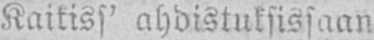Kaikiss' ahdistuksissaan
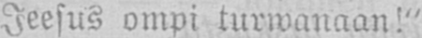Jeesus ompi turwanaan!"
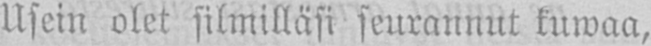Usein olet silmilläsi seurannut kuwaa,
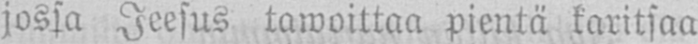jossa Jeesus tawoittaa pientä karitsaa
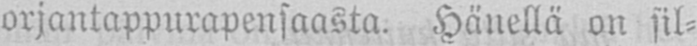orjantappurapensaasta. Hänellä on sil-
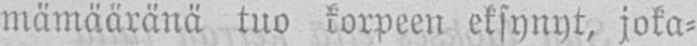mämääränä tuo korpeen eksynyt, joka-
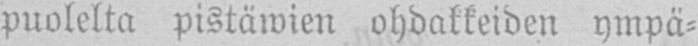puolelta pistäwien ohdakkeiden ympä-
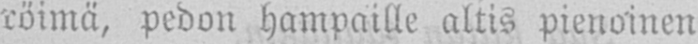röimä, pedon hampaille altis pienoinen
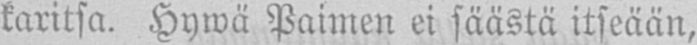karitsa. Hywä Paimen ei säästä itseään,
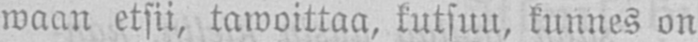waan etsii, tawoittaa, kutsun, kunnes on
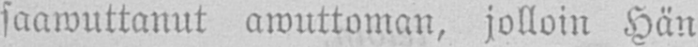saawuttanut awuttoman, jolloin Hän
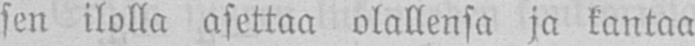sen ilolla asettaa olallensa ja kantaa
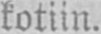kotiin.
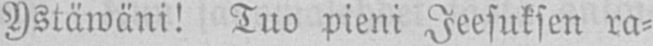Ystäwäni! Tuo pieni Jeesuksen ra-
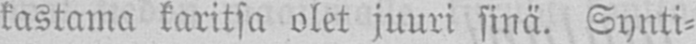kastama karitsa olet juuri sinä. Synti-
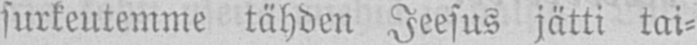surkeutemme tähden Jeesus jätti tai-
